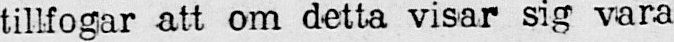tillfogar att om detta visar sig vara
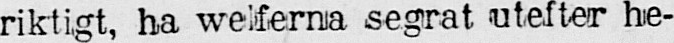riktigt, ha weiferna segrat utefter he-
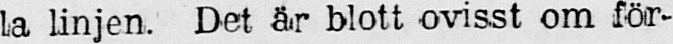la linjen. Det är blott ovisst om för-
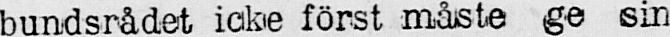bundsrådet icke först måste ge sin
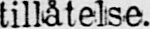tillåtelse.
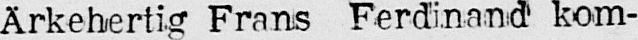Ärkehertig Frans Ferdinand kom-
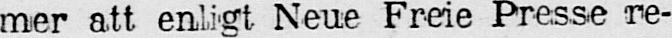mer att enligt Neue Freie Presse re-
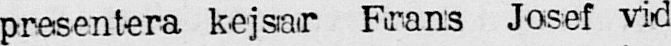presentera kejsar Frans Josef vid
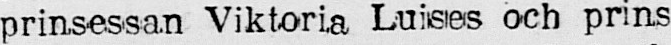prinsessan Viktoria Luises och prins
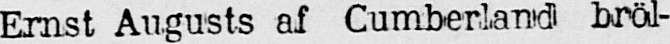Ernst Augusts af Cumberland bröl-
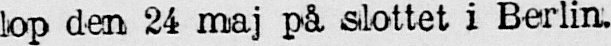lop den 24 maj på slottet i Berlin.
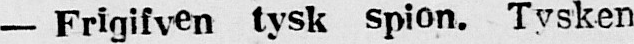— Frigifven tysk spion. Tysken
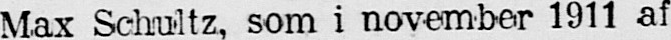Max Schultz, som i november 1911 af
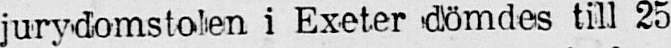jurydomstolen i Exeter dömdes till 25
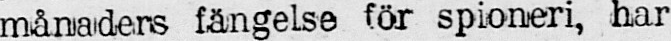månaders fängelse för spioneri, har
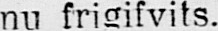nu frigifvits.
